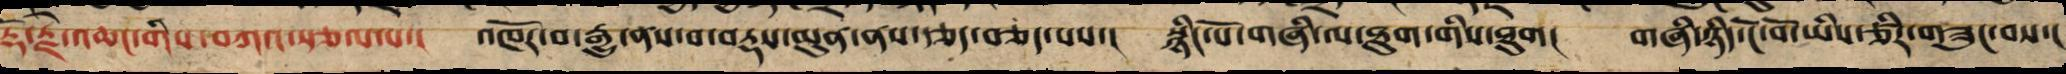རྡོ་རྗེ་འཆང་གིས་བཀའ་སྩལ་པ་། འཁོར་བ་རྒྱུ་ནས་བ་བརྡས་མུན་ནས་རྩད་བཅད་པས་། སྙིང་པོ་གཞི་ལ་ཐུག་གིས་ཐུག། གཞི་ཉིད་ངོ་བོ་ཡིས་ཙིར་བཟུང་བས་།
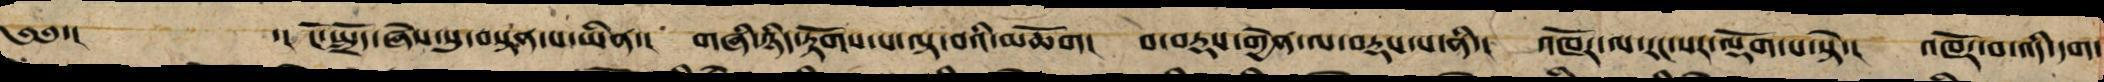༄༅་། ་། ངོ་སྤྲོད་ཞེས་སུ་བསྟན་པ་ཡིན་། གཞི་ཉིད་རྟོགས་པ་ལྟ་བའི་མཆོག། བ་བརྡས་གྱེན་ལ་བརྡས་པ་ནི་། འཁོར་ལ་རང་སར་ལྡོག་པ་སྟེ་། འཁོར་བ་འདི་དག་
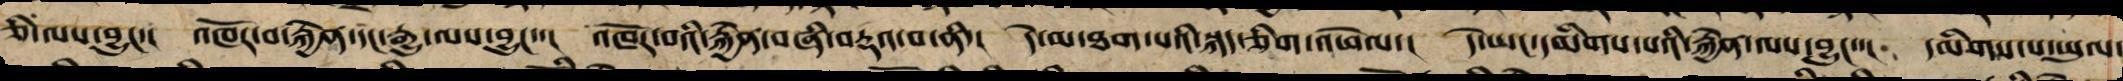ཅི་ལས་བྱུང་། འཁོར་བ་རྐྱེན་དང་རྒྱུ་ལས་བྱུང་་། འཁོར་བའི་རྐྱེན་གཞི་བརྡས་བ་ནི་། དེ་མ་ཐག་པའི་སྐད་ཅིག་འཕེལ་། དེ་ཡང་དམིགས་པའི་རྐྱེན་ལས་བྱུང་་། དམིགས་པ་ཡུལ་
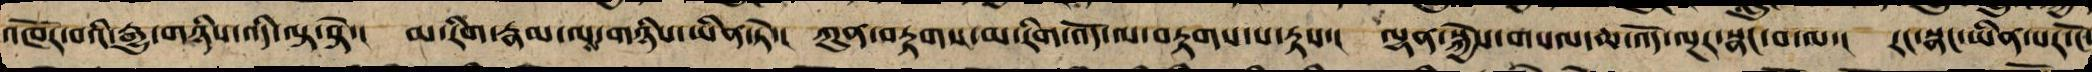འཁོར་བའི་རྒྱུ་གཉིས་འདི་ལྟ་སྟེ་། མ་རིག་རྣམ་པ་གཉིས་ཡིན་ཏེ་། ཀུན་བརྟགས་མ་རིག་འོད་ལྔ་བརྟགས་པ་བརྟས་། ལྷན་སྐྱེས་གསལ་ཆ་འོད་ལྔར་སྣང་བ་ལ་། རང་སྣང་ཡིན་པར་ངོ་
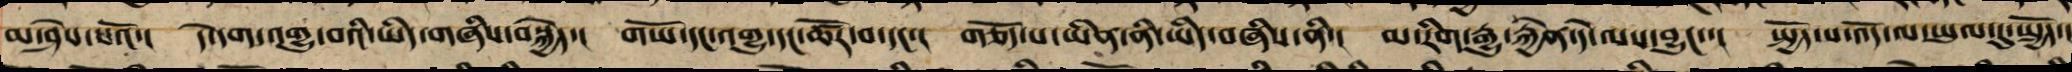མ་ཤེས་པའོ་། དེ་དག་འགྱུ་བས་ཡིད་གཞིས་བསྐྱེད་། གཡོ་དང་འགྱུ་དང་ཚོར་བ་དང་། གཅོད་པ་ཡི་ནི་ཡིད་བཞིས་ནི་། མ་རིག་རྒྱུ་རྐྱེན་དེ་ལས་བྱུང་་། སྤྱོད་པ་འོད་ལས་ཡུལ་དུ་སྤྱོད་།
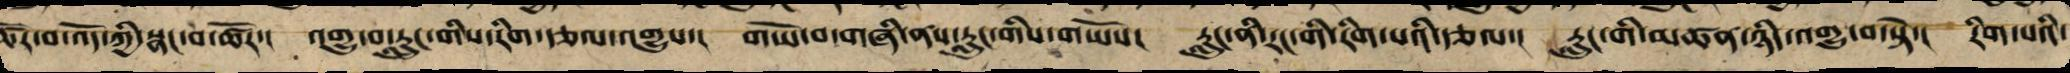ཚོར་བ་འོད་ཀྱི་སྣང་བ་ཚོར་། འགྱུ་བ་རླུང་གིས་རིག་རྩལ་འགྱུས་། གཡོ་བ་གཞི་ནས་རླུང་གིས་གཡོས། རླུང་ནི་རང་གི་རིག་པའི་རྩལ་། རླུང་གི་མཚན་ཉིད་འགྱུ་བ་སྟེ་། རིག་པའི་
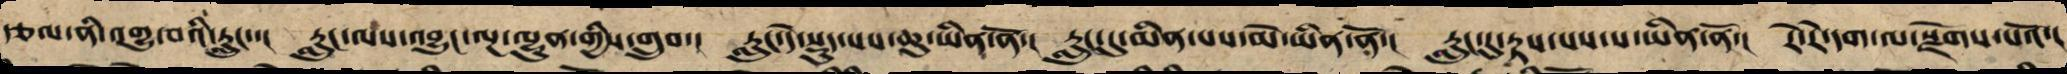རྩལ་ནི་འགྱུ་བའི་རླུང་་། རླུང་ལས་འབྱུང་ལྔ་ལྷུན་གྱིས་གྲུབ་། རླུང་དེ་སྡུད་པས་ཆུ་ཡིན་ནོ་། རླུང་དུ་སྨིན་པས་མེ་ཡིན་ནོ་། རླུང་དུ་རྟས་པས་ས་ཡིན་ནོ་། རེ་རེ་དག་ལ་སྫོགས་པའོ་།
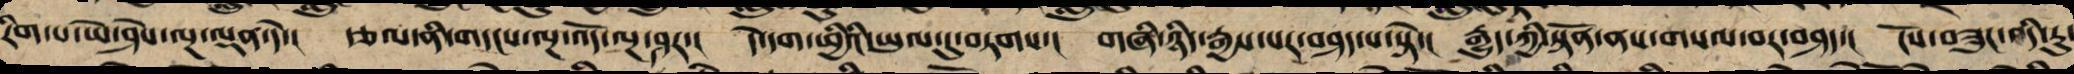རིག་པ་ཡེ་ཤེས་ལྔ་ལྡན་དེ་། རྩལ་ནི་གདངས་ལྔ་འོད་ལྔ་ཤར་། དེ་དག་ཕྱིའི་ཡུལ་དུ་བཏགས་། གཞི་ཉིད་རྒྱས་པར་བཤད་པ་སྟེ་། རྒྱུད་ཀྱིས་སྟོན་ནས་གསལ་བར་བཤད་། ངེས་བཟུང་འདི་རུ་
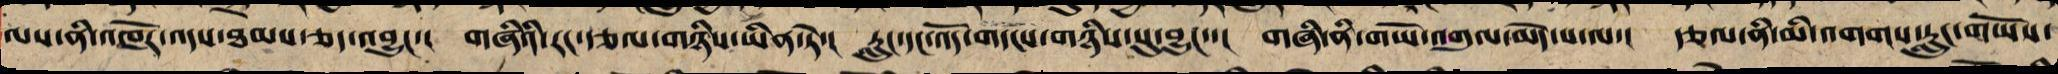ལས་ནི་འཁོར་འདས་ཐམས་ཅད་འབྱུང་། གཞིའི་རང་རྩལ་གཉིས་ཡིན་ཏེ་། རླུང་དང་འོད་གདངས་གཉིས་སུ་བྱུང་་། གཞི་ནི་གཡོ་འགུལ་མེད་པ་ལ་། རྩལ་ནི་མི་འགགས་རླུང་གཡོས་
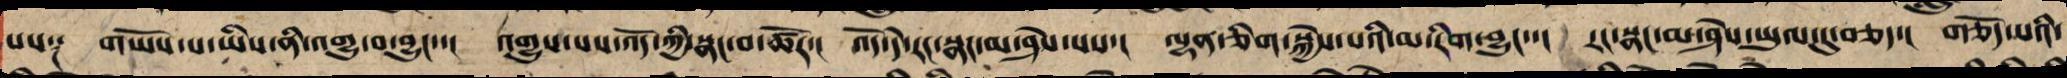པས༑ གཡོས་པ་ཡིས་ནི་འགྱུ་བ་བྱུང་་། འགྱུས་བས་འོད་ཀྱི་སྣང་བ་ཚོར་། འོད་དེ་རང་སྣང་མ་ཤེས་པས་། ལྷན་ཅིག་སྐྱེས་པའི་མ་རིག་བྱུང་་། རང་སྣང་མ་ཤེས་ཡུལ་དུ་བཅད་། གཅོད་པའི་
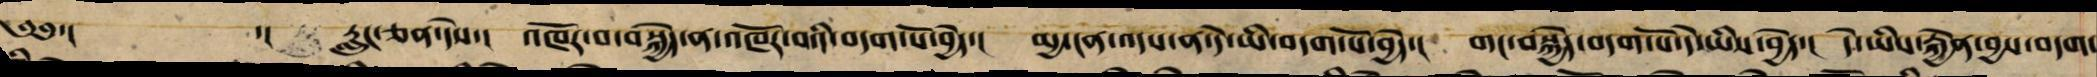༄༅་། ་། རླུང་ཅན་དེས་། འཁོར་བ་བསྐྱེད་ན་འཁོར་བའི་བདག་པོ་བྱེད་། མྱ་ངན་འདས་ན་དེ་ཡི་བདག་པོ་བྱེད་། གང་བསྐྱེད་བདག་པོ་དེ་ཡིས་བྱེད་། དེ་ཡིས་རྐྱེན་བྱས་བདག་
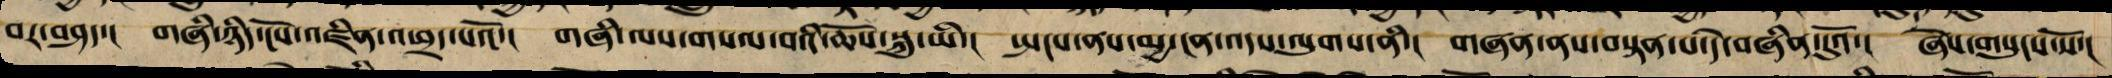བར་བཤད་། གཞི་ཉིད་ངོས་འཛིན་འཕྲད་པའོ་། གཞི་ལས་གསལ་བའི་ཆོས་སྐུ་ཡིས་། སྤངས་ནས་མྱ་ངན་འདས་ལུགས་ནི་། གཞན་ནས་བསྟན་པ་དེ་བཞིན་དུའོ་། ཞེས་གསུངས་སོ་།
